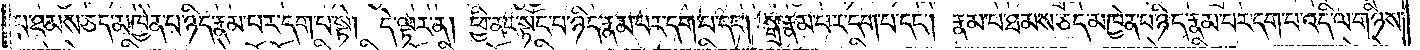པ་ཐམས་ཅད་མཁྱེན་པ་ཉིད་རྣམ་པར་དག་པ་སྟེ། དེ་ལྟར་ན། ཕྱི་ནང་སྟོང་པ་ཉིད་རྣམ་པར་དག་པ་དང༌། སྒྲ་རྣམ་པར་དག་པ་དང་༑ རྣམ་པ་ཐམས་ཅད་མཁྱེན་པ་ཉིད་རྣམ་པར་དག་པ་འདི་ལ་གཉིས་
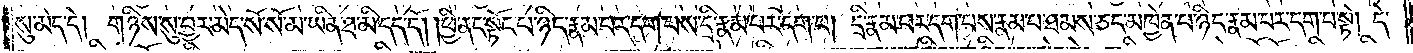སུ་མེད་དེ། གཉིས་སུ་བྱར་མེད་སོ་སོ་མ་ཡིན་ཐ་མི་དད་དོ། །ཕྱི་ནང་སྟོང་པ་ཉིད་རྣམ་པར་དག་པས་དྲི་རྣམ་པར་དག་པ༑ དྲི་རྣམ་པར་དག་པས་རྣམ་པ་ཐམས་ཅད་མཁྱེན་པ་ཉིད་རྣམ་པར་དག་པ་སྟེ། དེ་
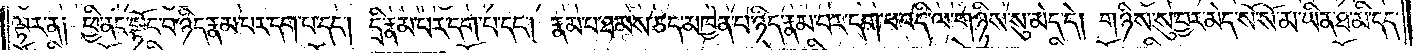ལྟར་ན། ཕྱི་ནང་སྟོང་པ་ཉིད་རྣམ་པར་དག་པ་དང༌། དྲི་རྣམ་པར་དག་པ་དང༌། རྣམ་པ་ཐམས་ཅད་མཁྱེན་པ་ཉིད་རྣམ་པར་དག་པ་འདི་ལ་གཉིས་སུ་མེད་དེ་གཉིས་སུ་བྱར་མེད་སོ་སོ་མ་ཡིན་ཐ་མི་དད་
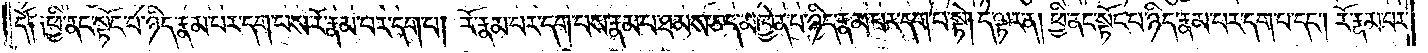དོ། །ཕྱི་ནང་སྟོང་པ་ཉིད་རྣམ་པར་དག་པས་རོ་རྣམ་པར་དག་པ། རོ་རྣམ་པར་དག་པས་རྣམ་པ་ཐམས་ཅད་མཁྱེན་པ་ཉིད་རྣམ་པར་དག་པ་སྟེ། དེ་ལྟར་ན། ཕྱི་ནང་སྟོང་པ་ཉིད་རྣམ་པར་དག་པ་དང༌། རོ་རྣམ་པར་
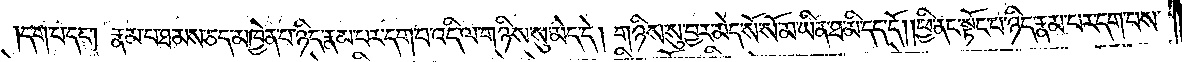དག་པ་དང༌། རྣམ་པ་ཐམས་ཅད་མཁྱེན་པ་ཉིད་རྣམ་པར་དག་པ་འདི་ལ་གཉིས་སུ་མེད་དེ། གཉིས་སུ་བྱར་མེད་སོ་སོ་མ་ཡིན་ཐ་མི་དད་དོ། །ཕྱི་ནང་སྟོང་པ་ཉིད་རྣམ་པར་དག་པས་
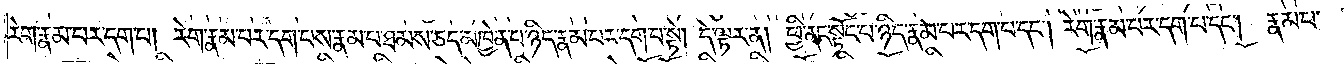རེག་རྣམ་པར་དག་པ། རེག་རྣམ་པར་དག་པས་རྣམ་པ་ཐམས་ཅད་མཁྱེན་པ་ཉིད་རྣམ་པར་དག་པ་སྟེ། དེ་ལྟར་ན། ཕྱི་ནང་སྟོང་པ་ཉིད་རྣམ་པར་དག་པ་དང༌། རེག་རྣམ་པར་དག་པ་དང༌། རྣམ་པ་
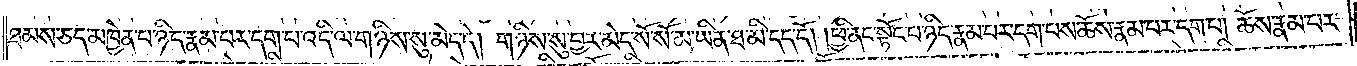ཐམས་ཅད་མཁྱེན་པ་ཉིད་རྣམ་པར་དག་པ་འདི་ལ་གཉིས་སུ་མེད་དེ། གཉིས་སུ་བྱར་མེད་སོ་སོ་མ་ཡིན་ཐ་མི་དད་དོ། །ཕྱི་ནང་སྟོང་པ་ཉིད་རྣམ་པར་དག་པས་ཆོས་རྣམ་པར་དག་པ། ཆོས་རྣམ་པར་
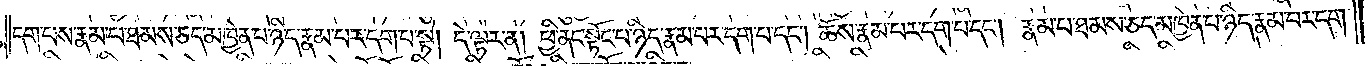དག་པས་རྣམ་པ་ཐམས་ཅད་མཁྱེན་པ་ཉིད་རྣམ་པར་དག་པ་སྟེ། དེ་ལྟར་ན། ཕྱི་ནང་སྟོང་པ་ཉིད་རྣམ་པར་དག་པ་དང༌། ཆོས་རྣམ་པར་དག་པ་དང༌། རྣམ་པ་ཐམས་ཅད་མཁྱེན་པ་ཉིད་རྣམ་པར་དག་
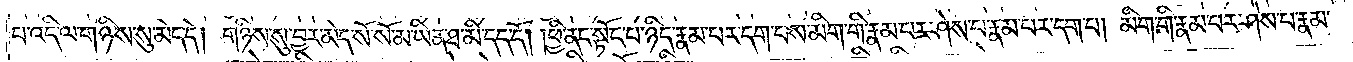པ་འདི་ལ་གཉིས་སུ་མེད་དེ། གཉིས་སུ་བྱར་མེད་སོ་སོ་མ་ཡིན་ཐ་མི་དད་དོ། །ཕྱི་ནང་སྟོང་པ་ཉིད་རྣམ་པར་དག་པས་མིག་གི་རྣམ་པར་ཤེས་པ་རྣམ་པར་དག་པ། མིག་གི་རྣམ་པར་ཤེས་པ་རྣམ་
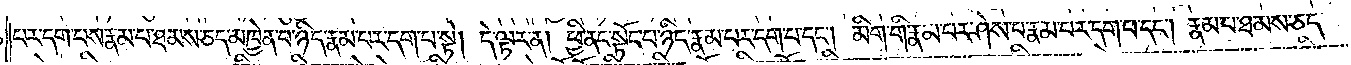པར་དག་པས་རྣམ་པ་ཐམས་ཅད་མཁྱེན་པ་ཉིད་རྣམ་པར་དག་པ་སྟེ། དེ་ལྟར་ན། ཕྱི་ནང་སྟོང་པ་ཉིད་རྣམ་པར་དག་པ་དང༌། མིག་གི་རྣམ་པར་ཤེས་པ་རྣམ་པར་དག་པ་དང༌། རྣམ་པ་ཐམས་ཅད་
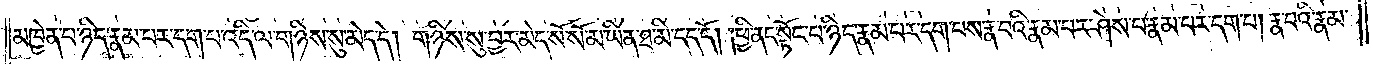མཁྱེན་པ་ཉིད་རྣམ་པར་དག་པ་འདི་ལ་གཉིས་སུ་མེད་དེ། གཉིས་སུ་བྱར་མེད་སོ་སོ་མ་ཡིན་ཐ་མི་དད་དོ། །ཕྱི་ནང་སྟོང་པ་ཉིད་རྣམ་པར་དག་པས་རྣ་བའི་རྣམ་པར་ཤེས་པ་རྣམ་པར་དག་པ། རྣ་བའི་རྣམ་
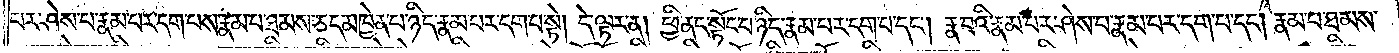པར་ཤེས་པ་རྣམ་པར་དག་པས་རྣམ་པ་ཐམས་ཅད་མཁྱེན་པ་ཉིད་རྣམ་པར་དག་པ་སྟེ། དེ་ལྟར་ན། ཕྱི་ནང་སྟོང་པ་ཉིད་རྣམ་པར་དག་པ་དང༌། རྣ་བའི་རྣམ་པར་ཤེས་པ་རྣམ་པར་དག་པ་དང༌། རྣམ་པ་ཐམས་
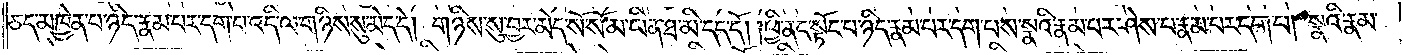ཅད་མཁྱེན་པ་ཉིད་རྣམ་པར་དག་པ་འདི་ལ་གཉིས་སུ་མེད་དེ། གཉིས་སུ་བྱར་མེད་སོ་སོ་མ་ཡིན་ཐ་མི་དད་དོ། །ཕྱི་ནང་སྟོང་པ་ཉིད་རྣམ་པར་དག་པས་སྣའི་རྣམ་པར་ཤེས་པ་རྣམ་པར་དག་པ། སྣའི་རྣམ་
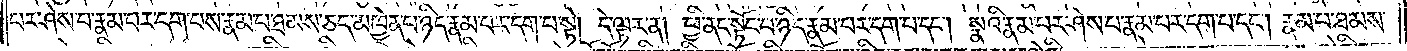པར་ཤེས་པ་རྣམ་པར་དག་པས་རྣམ་པ་ཐམས་ཅད་མཁྱེན་པ་ཉིད་རྣམ་པར་དག་པ་སྟེ། དེ་ལྟར་ན། ཕྱི་ནང་སྟོང་པ་ཉིད་རྣམ་པར་དག་པ་དང༌། སྣའི་རྣམ་པར་ཤེས་པ་རྣམ་པར་དག་པ་དང༌། རྣམ་པ་ཐམས་
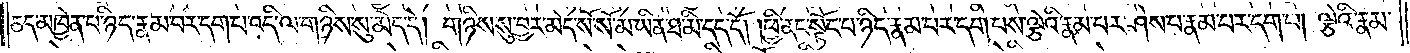ཅད་མཁྱེན་པ་ཉིད་རྣམ་པར་དག་པ་འདི་ལ་གཉིས་སུ་མེད་དེ། གཉིས་སུ་བྱར་མེད་སོ་སོ་མ་ཡིན་ཐ་མི་དད་དོ། །ཕྱི་ནང་སྟོང་པ་ཉིད་རྣམ་པར་དག་པས་ལྕེའི་རྣམ་པར་ཤེས་པ་རྣམ་པར་དག་པ། ལྕེའི་རྣམ་
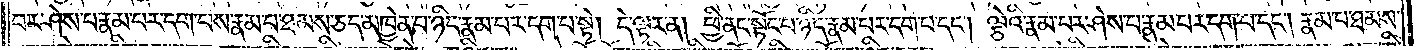པར་ཤེས་པ་རྣམ་པར་དག་པས་རྣམ་པ་ཐམས་ཅད་མཁྱེན་པ་ཉིད་རྣམ་པར་དག་པ་སྟེ། དེ་ལྟར་ན། ཕྱི་ནང་སྟོང་པ་ཉིད་རྣམ་པར་དག་པ་དང༌། ལྕེའི་རྣམ་པར་ཤེས་པ་རྣམ་པར་དག་པ་དང༌། རྣམ་པ་ཐམས་
